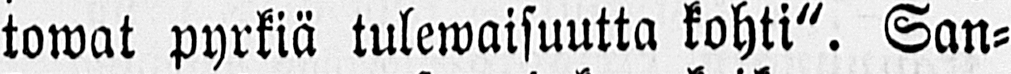towat pyrkiä tulewaisuutta kohti". San-
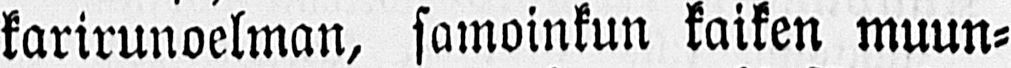karirunoelman, samoinkun kaiken muun-
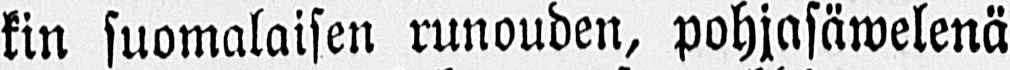kin suomalaisen runouden, pohjasäwelenä
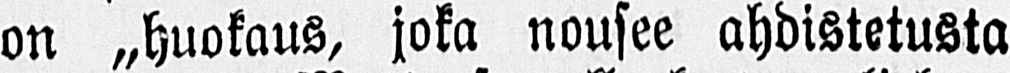on „huokaus, joka nousee ahdistetusta
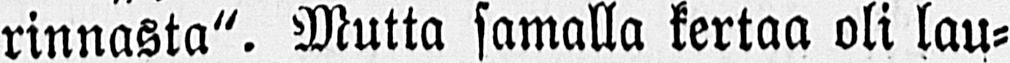rinnasta". Mutta samalla kertaa oli lau-
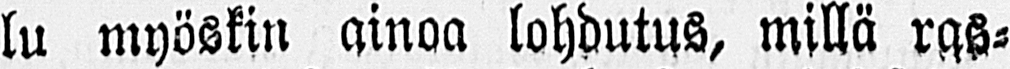lu myöskin ainoa lohdutus, millä ras-
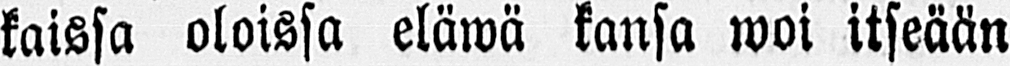kaissa oloissa eläwä kansa woi itseään
